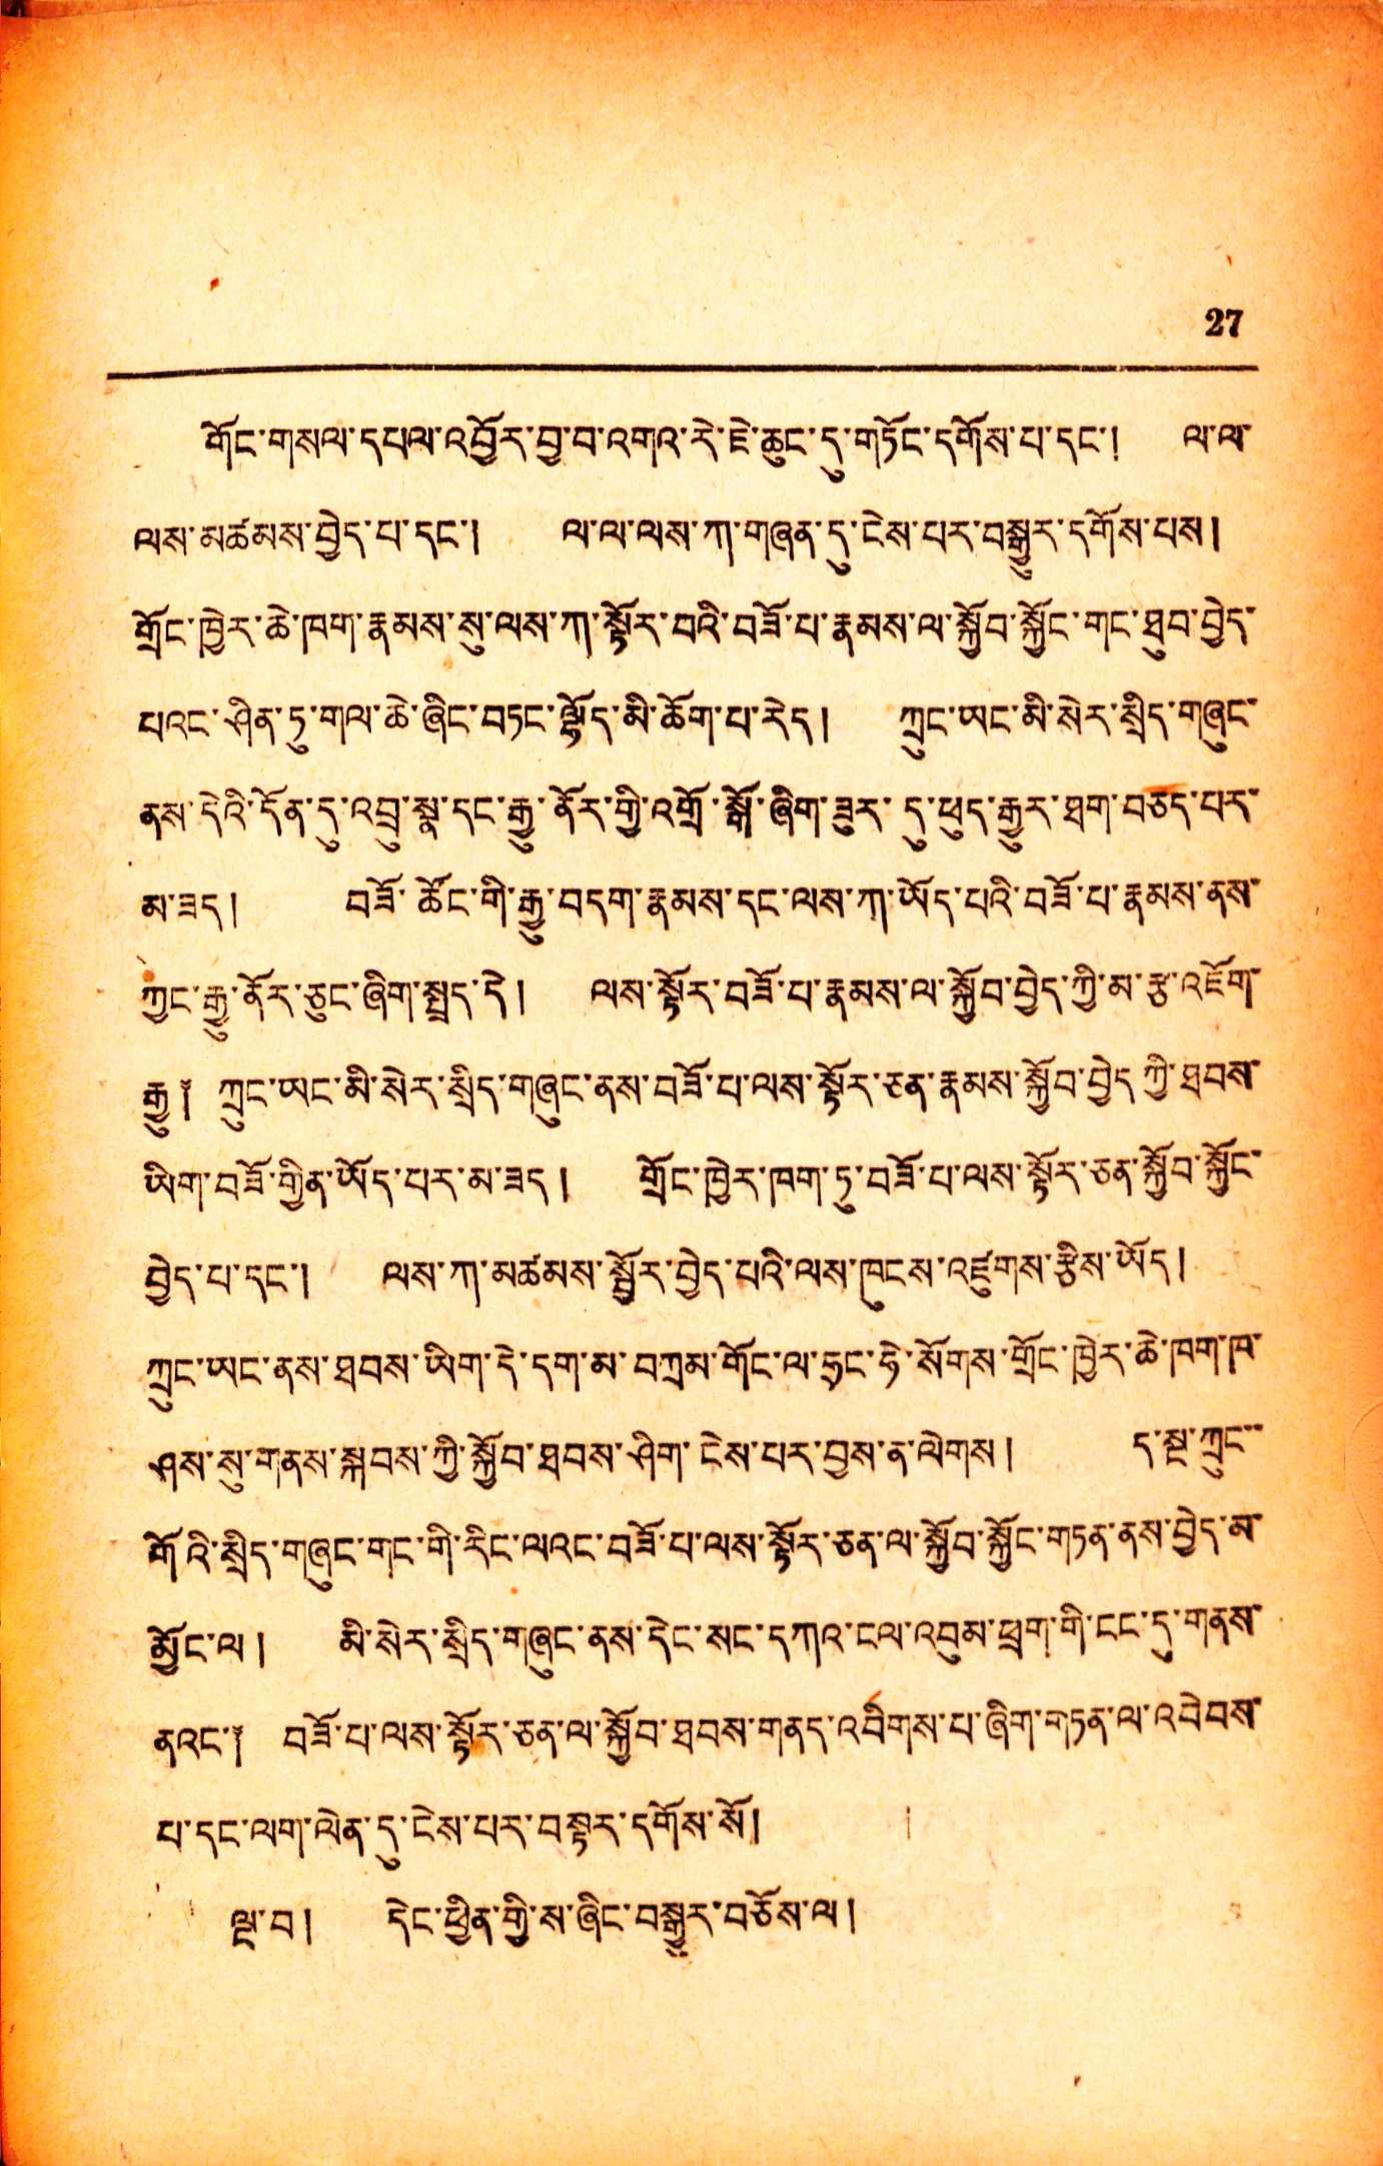27
གོང་གསལ་དཔལ་འབྱོར་བྱ་བ་འགའ་རི་ཇེ་ཆུང་དུ་གཏོང་དགོས་པ་དང་། ལ་ལ་
ལས་མཚམས་བྱེད་པ་དང་། ལ་ལ་ལས་ཀ་གཞན་དུ་ངེས་པར་བསྒྱུར་དགོས་པས།
གྲོང་ཁྱེར་ཆེ་ཁག་རྣམས་སུ་ལས་ཀ་སྟོར་བའི་བཟོ་པ་རྣམས་ལ་སྐྱོབ་སྐྱོང་གང་ཐུབ་བྱེད་
པའང་ཤིན་ཏུ་གལ་ཆེ་ཞིང་གཏང་ལྷོད་མི་ཆོག་པ་རེད། ཀྲུང་ཡང་མི་སེར་སྲིད་གཞུང་
ནས་དེའི་དོན་དུ་འབྲུ་སྣ་དང་རྒྱུ་ནོར་གྱི་འགྲོ་སྒོ་ཞིག་ཟུར་དུ་ཕུད་རྒྱུར་ཐག་བཅད་པར་
མ་ཟད ། བཟོ་ཚོང་གི་རྒྱུ་བདག་རྣམས་དང་ལས་ཀ་ཡོད་པའི་བཟོ་པ་རྣམས་ནས་
ཀྱང་རྒྱུ་ནོར་ཅུང་ཞིག་སྤྲད་དེ ། ལས་སྟོར་བཟོ་པ་རྣམས་ལ་སྐྱོབ་བྱེད་ཀྱི་མ་རྩ་འཇོག་
རྒྱུ༐ ཀྲུང་ཡང་མི་སེར་སྲིད་གཞུང་ནས་བཟོ་པ་ལས་སྟོར་ཅན་རྣམས་སྐྱོབ་བྱེད་ཀྱི་ཐབས་
ཡིག་བཟོ་གྱིན་ཡོད་པར་མ་ཟད ། གྲོང་ཁྱེར་ཁག་ཏུ་བཟོ་པ་ལས་སྟོར་ཅན་སྐྱོབ་རྐྱོང་
བྱེད་པ་དང་། ལས་ཀ་མཚམས་སྦྱོར་བྱེད་པའི་ལས་ཁུངས་འཛུགས་རྩིས་ཡོད།
ཀྲུང་ཡང་ནས་ཐལས་ཡིག་དེ་དག་མ་བཀྲམ་གོང་ལ་ཧྲང་ཧེ་སོགས་གྲོང་ཁྱིར་ཆེ་ཁག་ཁ་
ཤས་སུ་གནས་སྐབས་ཀྱི་སྐྱོབ་ཐབས་ཤིག་ངེས་པར་བྱས་ན་ལེགས ། ད་ལྔ་ཀྲུང་་
གོའི་སྲིད་གཞུང་གང་གི་རིང་ལའང་བཟོ་བ་ལས་སྟོར་ཅན་ལ་སྐྱོབ་སྐྱོང་གཏན་ནས་བྱེད་མ་
མྱོང་ལ ། མི་སེར་སྲིད་གཞུང་ནས་དེང་སང་དཀའ་ངལ་འབུམ་ཕྲག་གི་ངང་དུ་གནས་
ནའང་༐ བཟོ་པ་ལས་སྟོར་ཅན་ལ་སྐྱོབ་ཐབས་གནད་འབིགས་པ་ཞིག་གཏན་ལ་འབེབས་
པ་དང་ལག་ལེན་དུ་ངེས་པར་བསྟར་དགོས་སོ།
ལྡ་བ། དེང་ཕྱིན་གྱི་ས་ཞིང་བསྒྱུར་བཅོས་ལ།
